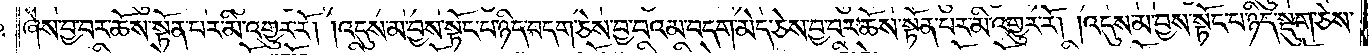ཞེས་བྱ་བར་ཆོས་སྟོན་པར་མི་འགྱུར་རོ། །འདུས་མ་བྱས་སྟོང་པ་ཉིད་བདག་ཅེས་བྱ་བའམ་བདག་མེད་ཅེས་བྱ་བར་ཆོས་སྟོན་པར་མི་འགྱུར་རོ། །འདུས་མ་བྱས་སྟོང་པ་ཉིད་སྡུག་ཅེས་
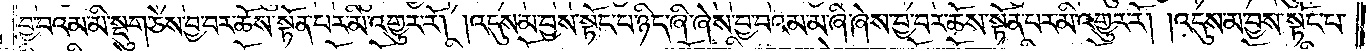བྱ་བའམ་མི་སྡུག་ཅེས་བྱ་བར་ཆོས་སྟོན་པར་མི་འགྱུར་རོ། །འདུས་མ་བྱས་སྟོང་པ་ཉིད་ཞི་ཞེས་བྱ་བའམ་མ་ཞི་ཞེས་བྱ་བར་ཆོས་སྟོན་པར་མི་འགྱུར་རོ། །འདུས་མ་བྱས་སྟོང་པ་
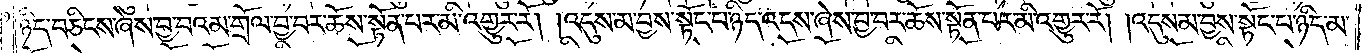ཉིད་བཅིངས་ཞེས་བྱ་བའམ་གྲོལ་ཞེས་བྱ་བར་ཆོས་སྟོན་པ་མི་འགྱུར་རོ། །འདུས་མ་བྱས་སྟོང་པ་ཉིད་འདས་ཞེས་བྱ་བར་ཆོས་སྟོན་པར་མི་འགྱུར་རོ། །འདུས་མ་བྱས་སྟོང་པ་ཉིད་མ་
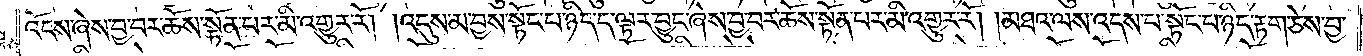འོངས་ཞེས་བྱ་བར་ཆོས་སྟོན་པར་མི་འགྱུར་རོ། །འདུས་མ་བྱས་སྟོང་པ་ཉིད་ད་ལྟར་བྱུང་ཞེས་བྱ་བར་ཆོས་སྟོན་པར་མི་འགྱུར་རོ། །མཐའ་ལས་འདས་པ་སྟོང་པ་ཉིད་རྟག་ཅེས་བྱ་
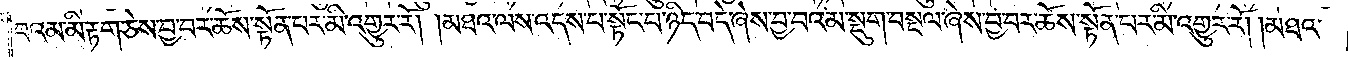བའམ་མི་རྟག་ཅེས་བྱ་བར་ཆོས་སྟོན་པར་མི་འགྱུར་རོ། །མཐའ་ལས་འདས་པ་སྟོང་པ་ཉིད་བདེ་ཞེས་བྱ་བའམ་སྡུག་བསྔལ་ཞེས་བྱ་བར་ཆོས་སྟོན་པར་མི་འགྱུར་རོ། །མཐའ་
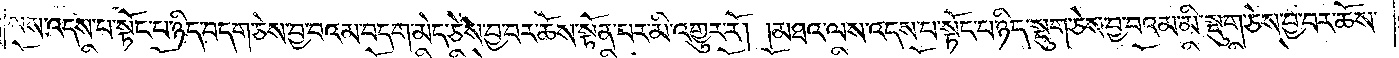ལས་འདས་པ་སྟོང་པ་ཉིད་བདག་ཅེས་བྱ་བའམ་བདག་མེད་ཅེས་བྱ་བར་ཆོས་སྟོན་པར་མི་འགྱུར་རོ། །མཐའ་ལས་འདས་པ་སྟོང་པ་ཉིད་སྡུག་ཅེས་བྱ་བའམ་མི་སྡུག་ཅེས་བྱ་བར་ཆོས་
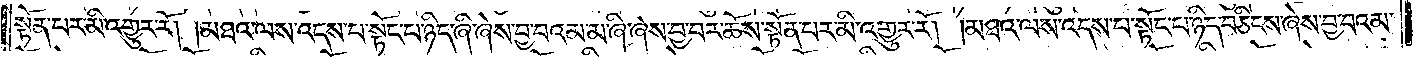སྟོན་པར་མི་འགྱུར་རོ། །མཐའ་ལས་འདས་པ་སྟོང་པ་ཉིད་ཞི་ཞེས་བྱ་བའམ་མ་ཞི་ཞེས་བྱ་བར་ཆོས་སྟོན་པར་མི་འགྱུར་རོ། །མཐའ་ལས་འདས་པ་སྟོང་པ་ཉིད་བཅིངས་ཞེས་བྱ་བའམ་
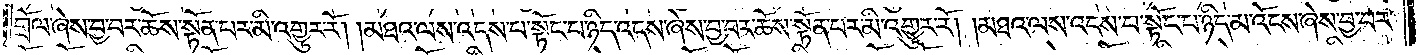གྲོལ་ཞེས་བྱ་བར་ཆོས་སྟོན་པར་མི་འགྱུར་རོ། །མཐའ་ལས་འདས་པ་སྟོང་པ་ཉིད་འདས་ཞེས་བྱ་བར་ཆོས་སྟོན་པར་མི་འགྱུར་རོ། །མཐའ་ལས་འདས་པ་སྟོང་པ་ཉིད་མ་འོངས་ཞེས་བྱ་བར་
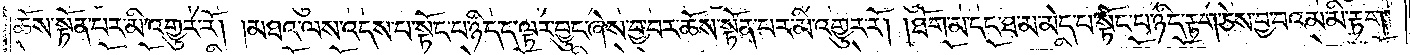ཆོས་སྟོན་པར་མི་འགྱུར་རོ། །མཐའ་ལས་འདས་པ་སྟོང་པ་ཉིད་ད་ལྟར་བྱུང་ཞེས་བྱ་བར་ཆོས་སྟོན་པར་མི་འགྱུར་རོ། །ཐོག་མ་དང་ཐ་མ་མེད་པ་སྟོང་པ་ཉིད་རྟག་ཅེས་བྱ་བའམ་མི་རྟག་
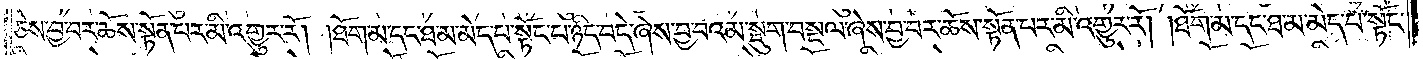ཅེས་བྱ་བར་ཆོས་སྟོན་པར་མི་འགྱུར་རོ། །ཐོག་མ་དང་ཐ་མ་མེད་པ་སྟོང་པ་ཉིད་བདེ་ཞེས་བྱ་བའམ་སྡུག་བསྔལ་ཞེས་བྱ་བར་ཆོས་སྟོན་པར་མི་འགྱུར་རོ། །ཐོག་མ་དང་ཐ་མ་མེད་པ་སྟོང་
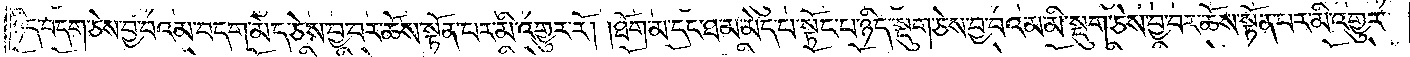ཉིད་བདག་ཅེས་བྱ་བའམ་བདག་མེད་ཅེས་བྱ་བར་ཆོས་སྟོན་པར་མི་འགྱུར་རོ། །ཐོག་མ་དང་ཐ་མ་མེད་པ་སྟོང་པ་ཉིད་སྡུག་ཅེས་བྱ་བའམ་མི་སྡུག་ཅེས་བྱ་བར་ཆོས་སྟོན་པར་མི་འགྱུར་
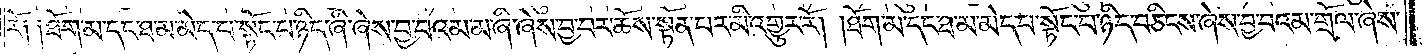རོ༑ ༑ཐོག་མ་དང་ཐ་མ་མེད་པ་སྟོང་པ་ཉིད་ཞི་ཞེས་བྱ་བའམ་མ་ཞི་ཞེས་བྱ་བར་ཆོས་སྟོན་པར་མི་འགྱུར་རོ། །ཐོག་མ་དང་ཐ་མ་མེད་པ་སྟོང་པ་ཉིད་བཅིངས་ཞེས་བྱ་བའམ་གྲོལ་ཞེས་
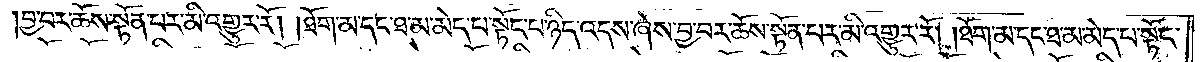བྱ་བར་ཆོས་སྟོན་པར་མི་འགྱུར་རོ། །ཐོག་མ་དང་ཐ་མ་མེད་པ་སྟོང་པ་ཉིད་འདས་ཞེས་བྱ་བར་ཆོས་སྟོན་པར་མི་འགྱུར་རོ། །ཐོག་མ་དང་ཐ་མ་མེད་པ་སྟོང་
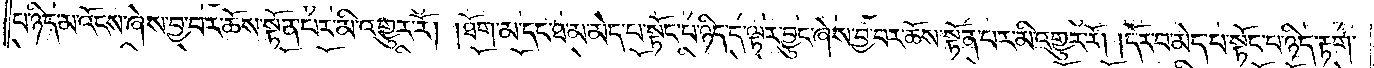པ་ཉིད་མ་འོངས་ཞེས་བྱ་བར་ཆོས་སྟོན་པར་མི་འགྱུར་རོ། །ཐོག་མ་དང་ཐ་མ་མེད་པ་སྟོང་པ་ཉིད་ད་ལྟར་བྱུང་ཞེས་བྱ་བར་ཆོས་སྟོན་པར་མི་འགྱུར་རོ། །དོར་བ་མེད་པ་སྟོང་པ་ཉིད་རྟག་
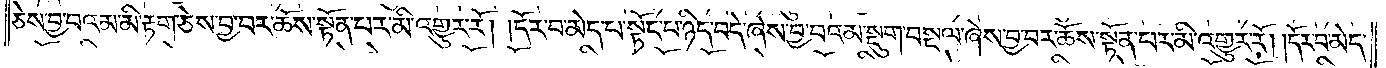ཅེས་བྱ་བའམ་མི་རྟག་ཅེས་བྱ་བར་ཆོས་སྟོན་པར་མི་འགྱུར་རོ། །དོར་བ་མེད་པ་སྟོང་པ་ཉིད་བདེ་ཞེས་བྱ་བའམ་སྡུག་བསྔལ་ཞེས་བྱ་བར་ཆོས་སྟོན་པར་མི་འགྱུར་རོ། །དོར་བ་མེད་
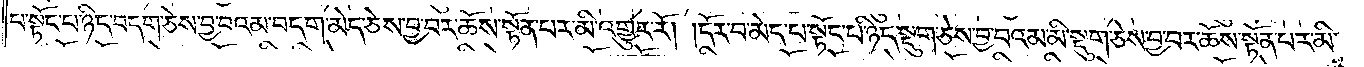པ་སྟོང་པ་ཉིད་བདག་ཅེས་བྱ་བའམ་བདག་མེད་ཅེས་བྱ་བར་ཆོས་སྟོན་པར་མི་འགྱུར་རོ། །དོར་བ་མེད་པ་སྟོང་པ་ཉིད་སྡུག་ཅེས་བྱ་བའམ་མི་སྡུག་ཅེས་བྱ་བར་ཆོས་སྟོན་པར་མི་
